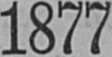1877
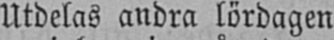Utdelas andra lördagen
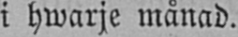i hwarje månad.
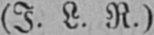(I. L. R.)
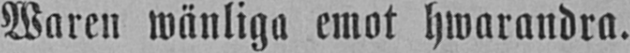Waren wänliga emot hwarandra.
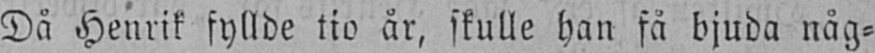Då Henrik fyllde tio år, skulle han få bjuda någ-
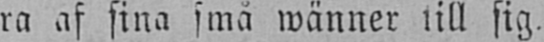ra af sina små wänner till sig.
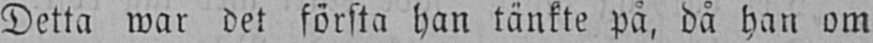Detta war det första han tänkte på, då han om
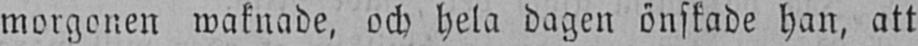morgonen waknade, och hela dagen önskade han, att
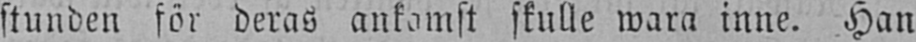stunden för deras ankomst skulle wara inne. Han
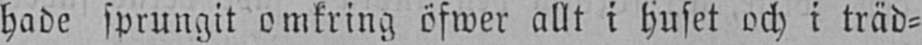hade sprungit omkring öfwer allt i huset och i träd-
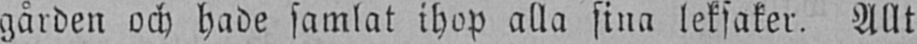gården och hade samlat ihop alla sina leksaker. Allt
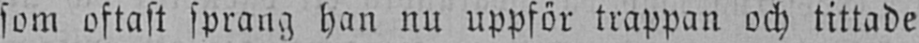som oftast sprang han nu uppför trappan och tittade
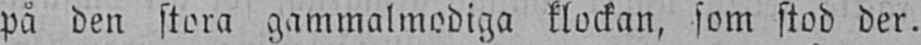på den stora gammalmodiga klockan, som stod der.
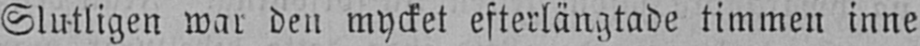Slutligen war den mycket efterlängtade timmen inne
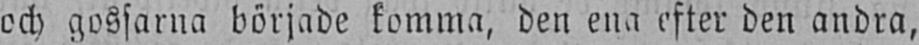och gossarna började komma, den ena efter den andra,
